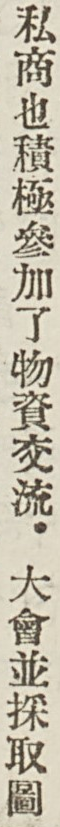私商也積極參加了物資交流。大會並採取圖
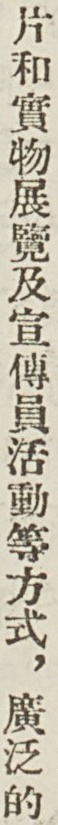片和實物展覽及宣傳員活動等方式，廣泛的
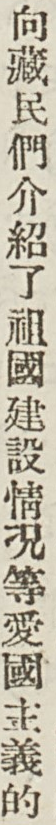向藏民們介紹了祖國建設情況等愛國主義的
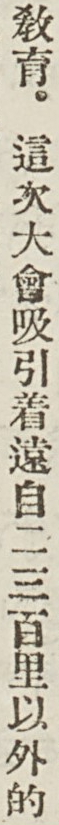敎育。這次大會吸引着遠自二三百里以外的
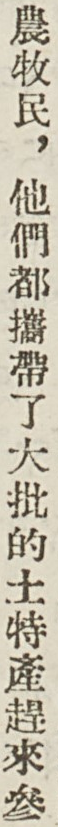農牧民，他們都攜帶了大批的土特產趕來參
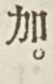加。
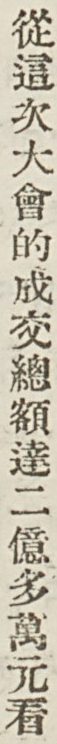從這次大會的成交總額達二億多萬元看
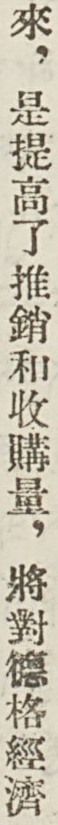來，是提高了推銷和收購量，將對德格經濟
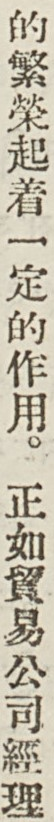的繁榮起着一定的作用。正如貿易公司經理
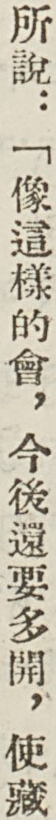所說：「像這樣的會，今後還要多開，使藏
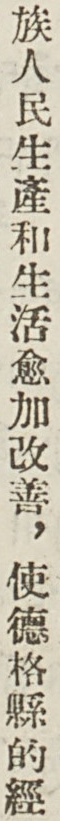族人民生產和生活愈加改善，使德格縣的經
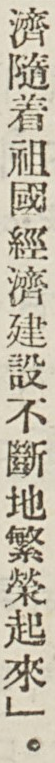濟隨着祖國經濟建設不斷地繁榮起來」。
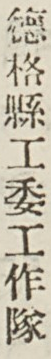德格縣工委工作隊
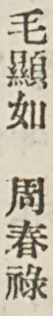毛顯如 周春祿
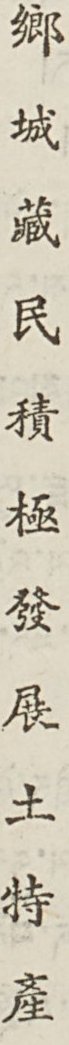鄉城藏民積極發展土特產
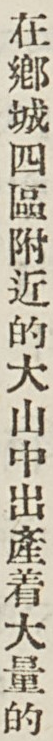在鄉成四區附近的大山中出產着大量的
